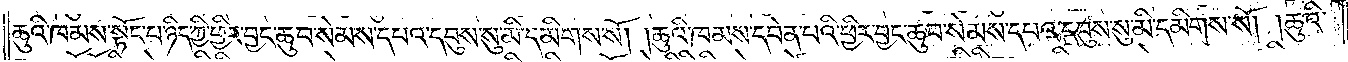ཆུའི་ཁམས་སྟོང་པ་ཉིད་ཀྱི་ཕྱིར་བྱང་ཆུབ་སེམས་དཔའ་དབུས་སུ་མི་དམིགས་སོ། །ཆུའི་ཁམས་དབེན་པའི་ཕྱིར་བྱང་ཆུབ་སེམས་དཔའ་དབུས་སུ་མི་དམིགས་སོ། །ཆུའི་
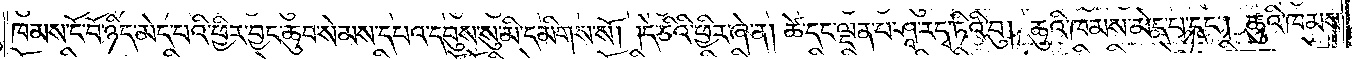ཁམས་ངོ་བོ་ཉིད་མེད་པའི་ཕྱིར་བྱང་ཆུབ་སེམས་དཔའ་དབུས་སུ་མི་དམིགས་སོ། །དེ་ཅིའི་ཕྱིར་ཞེ་ན། ཚེ་དང་ལྡན་པ་ཤཱ་རདྭ་ཏིའི་བུ། ཆུའི་ཁམས་མེད་པ་དང༌། ཆུའི་ཁམས་
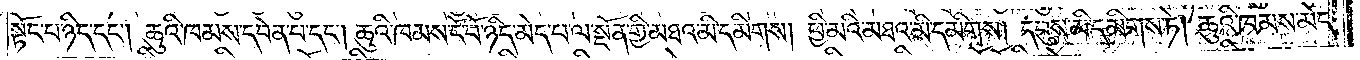སྟོང་པ་ཉིད་དང༌། ཆུའི་ཁམས་དབེན་པ་དང༌། ཆུའི་ཁམས་ངོ་བོ་ཉིད་མེད་པ་ལ་སྔོན་གྱི་མཐའ་མི་དམིགས། ཕྱི་མའི་མཐའ་མི་དམིགས། དབུས་མི་དམིགས་ཏེ། ཆུའི་ཁམས་མེད་
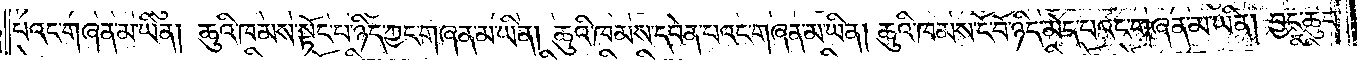པའང་གཞན་མ་ཡིན། ཆུའི་ཁམས་སྟོང་པ་ཉིད་ཀྱང་གཞན་མ་ཡིན། ཆུའི་ཁམས་དབེན་པའང་གཞན་མ་ཡིན། ཆུའི་ཁམས་ངོ་བོ་ཉིད་མེད་པའང་གཞན་མ་ཡིན། བྱང་ཆུབ་
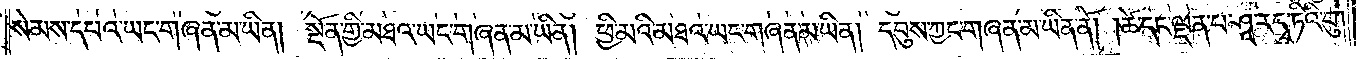སེམས་དཔའ་ཡང་གཞན་མ་ཡིན། སྔོན་གྱི་མཐའ་ཡང་གཞན་མ་ཡིན། ཕྱི་མའི་མཐའ་ཡང་གཞན་མ་ཡིན། དབུས་ཀྱང་གཞན་མ་ཡིན་ནོ། །ཚེ་དང་ལྡན་པ་ཤཱ་རདྭ་ཏིའི་བུ།
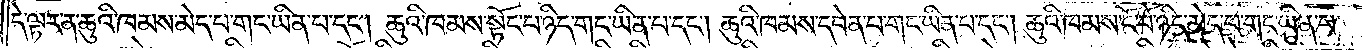དེ་ལྟར་ན་ཆུའི་ཁམས་མེད་པ་གང་ཡིན་པ་དང༌། ཆུའི་ཁམས་སྟོང་པ་ཉིད་གང་ཡིན་པ་དང༌། ཆུའི་ཁམས་དབེན་པ་གང་ཡིན་པ་དང༌། ཆུའི་ཁམས་ངོ་བོ་ཉིད་མེད་པ་གང་ཡིན་པ་
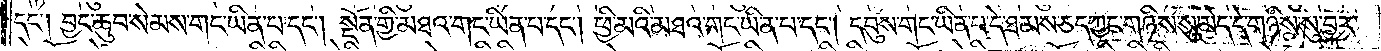དང༌། བྱང་ཆུབ་སེམས་དཔའ་གང་ཡིན་པ་དང༌། སྔོན་གྱི་མཐའ་གང་ཡིན་པ་དང༌། ཕྱི་མའི་མཐའ་གང་ཡིན་པ་དང༌། དབུས་གང་ཡིན་པ་དེ་ཐམས་ཅད་ཀྱང་གཉིས་སུ་མེད་དེ་གཉིས་སུ་བྱར་
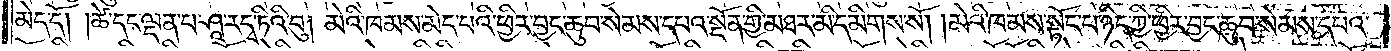མེད་དོ། །ཚེ་དང་ལྡན་པ་ཤཱ་རདྭ་ཏིའི་བུ། མེའི་ཁམས་མེད་པའི་ཕྱིར་བྱང་ཆུབ་སེམས་དཔའ་སྔོན་གྱི་མཐར་མི་དམིགས་སོ། །མེའི་ཁམས་སྟོང་པ་ཉིད་ཀྱི་ཕྱིར་བྱང་ཆུབ་སེམས་དཔའ་
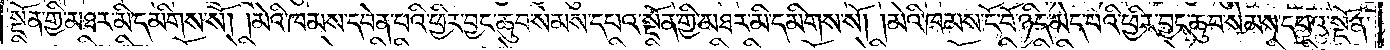སྔོན་གྱི་མཐར་མི་དམིགས་སོ། །མེའི་ཁམས་དབེན་པའི་ཕྱིར་བྱང་ཆུབ་སེམས་དཔའ་སྔོན་གྱི་མཐར་མི་དམིགས་སོ། །མེའི་ཁམས་ངོ་བོ་ཉིད་མེད་པའི་ཕྱིར་བྱང་ཆུབ་སེམས་དཔའ་སྔོན་
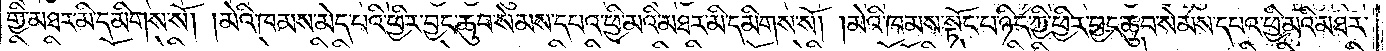གྱི་མཐར་མི་དམིགས་སོ། །མེའི་ཁམས་མེད་པའི་ཕྱིར་བྱང་ཆུབ་སེམས་དཔའ་ཕྱི་མའི་མཐར་མི་དམིགས་སོ། །མེའི་ཁམས་སྟོང་པ་ཉིད་ཀྱི་ཕྱིར་བྱང་ཆུབ་སེམས་དཔའ་ཕྱི་མའི་མཐར་
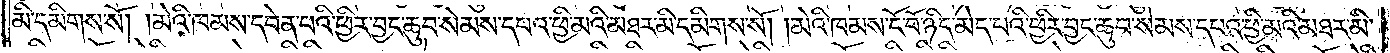མི་དམིགས་སོ། །མེའི་ཁམས་དབེན་པའི་ཕྱིར་བྱང་ཆུབ་སེམས་དཔའ་ཕྱི་མའི་མཐར་མི་དམིགས་སོ། །མེའི་ཁམས་ངོ་བོ་ཉིད་མེད་པའི་ཕྱིར་བྱང་ཆུབ་སེམས་དཔའ་ཕྱི་མའི་མཐར་མི་
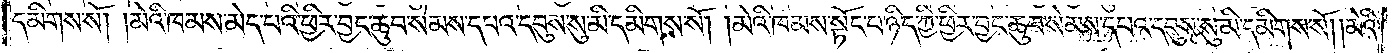དམིགས་སོ། །མེའི་ཁམས་མེད་པའི་ཕྱིར་བྱང་ཆུབ་སེམས་དཔའ་དབུས་སུ་མི་དམིགས་སོ། །མེའི་ཁམས་སྟོང་པ་ཉིད་ཀྱི་ཕྱིར་བྱང་ཆུབ་སེམས་དཔའ་དབུས་སུ་མི་དམིགས་སོ། །མེའི་
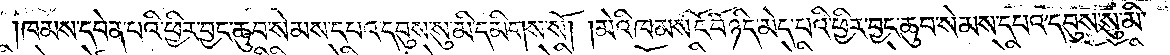ཁམས་དབེན་པའི་ཕྱིར་བྱང་ཆུབ་སེམས་དཔའ་དབུས་སུ་མི་དམིགས་སོ། །མེའི་ཁམས་ངོ་བོ་ཉིད་མེད་པའི་ཕྱིར་བྱང་ཆུབ་སེམས་དཔའ་དབུས་སུ་མི་
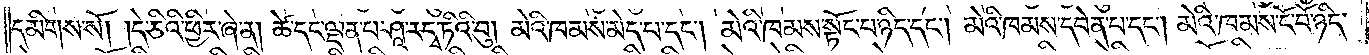དམིགས་སོ། །དེ་ཅིའི་ཕྱིར་ཞེ་ན། ཚེ་དང་ལྡན་པ་ཤཱ་རདྭ་ཏིའི་བུ། མེའི་ཁམས་མེད་པ་དང༌། མེའི་ཁམས་སྟོང་པ་ཉིད་དང༌། མེའི་ཁམས་དབེན་པ་དང༌། མེའི་ཁམས་ངོ་བོ་ཉིད་
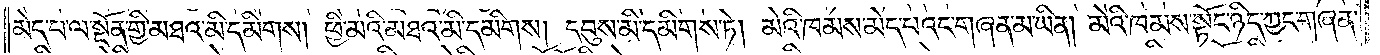མེད་པ་ལ་སྔོན་གྱི་མཐའ་མི་དམིགས། ཕྱི་མའི་མཐའ་མི་དམིགས། དབུས་མི་དམིགས་ཏེ། མེའི་ཁམས་མེད་པའང་གཞན་མ་ཡིན། མེའི་ཁམས་སྟོང་པ་ཉིད་ཀྱང་གཞན་
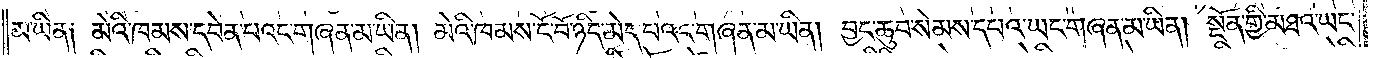མ་ཡིན། མེའི་ཁམས་དབེན་པའང་གཞན་མ་ཡིན། མེའི་ཁམས་ངོ་བོ་ཉིད་མེད་པའང་གཞན་མ་ཡིན། བྱང་ཆུབ་སེམས་དཔའ་ཡང་གཞན་མ་ཡིན། སྔོན་གྱི་མཐའ་ཡང་
